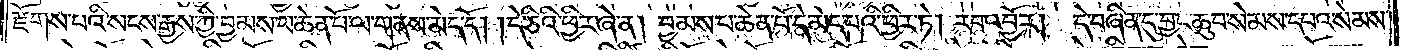རྫོགས་པའི་སངས་རྒྱས་ཀྱི་བྱམས་པ་ཆེན་པོ་ལ་གནས་མེད་དོ། །དེ་ཅིའི་ཕྱིར་ཞེ་ན། བྱམས་པ་ཆེན་པོ་དེ་མེད་པའི་ཕྱིར་ཏེ། རབ་འབྱོར། དེ་བཞིན་དུ་བྱང་ཆུབ་སེམས་དཔའ་སེམས་
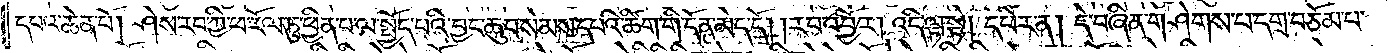དཔའ་ཆེན་པོ། ཤེས་རབ་ཀྱི་ཕ་རོལ་ཏུ་ཕྱིན་པ་ལ་སྤྱོད་པའི་བྱང་ཆུབ་སེམས་དཔའི་ཚིག་གི་དོན་མེད་དོ། །རབ་འབྱོར། འདི་ལྟ་སྟེ། དཔེར་ན། དེ་བཞིན་གཤེགས་པ་དགྲ་བཅོམ་པ་
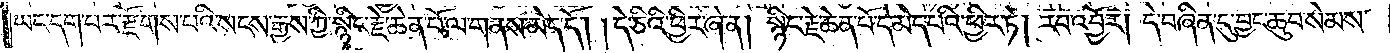ཡང་དག་པར་རྫོགས་པའི་སངས་རྒྱས་ཀྱི་སྙིང་རྗེ་ཆེན་པོ་ལ་གནས་མེད་དོ། །དེ་ཅིའི་ཕྱིར་ཞེ་ན། སྙིང་རྗེ་ཆེན་པོ་དེ་མེད་པའི་ཕྱིར་ཏེ། རབ་འབྱོར། དེ་བཞིན་དུ་བྱང་ཆུབ་སེམས་
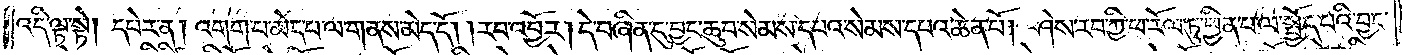འདི་ལྟ་སྟེ། དཔེར་ན། འགག་པ་མེད་པ་ལ་གནས་མེད་དོ། །རབ་འབྱོར། དེ་བཞིན་དུ་བྱང་ཆུབ་སེམས་དཔའ་སེམས་དཔའ་ཆེན་པོ། ཤེས་རབ་ཀྱི་ཕ་རོལ་ཏུ་ཕྱིན་པ་ལ་སྤྱོད་པའི་བྱང་
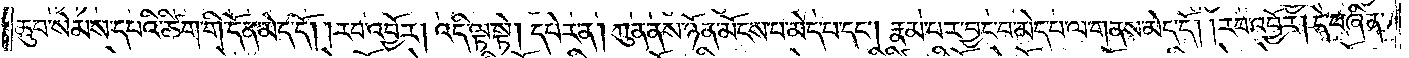ཆུབ་སེམས་དཔའི་ཚིག་གི་དོན་མེད་དོ། །རབ་འབྱོར། འདི་ལྟ་སྟེ། དཔེར་ན། ཀུན་ནས་ཉོན་མོངས་པ་མེད་པ་དང༌། རྣམ་པར་བྱང་བ་མེད་པ་ལ་གནས་མེད་དོ། །རབ་འབྱོར། དེ་བཞིན་
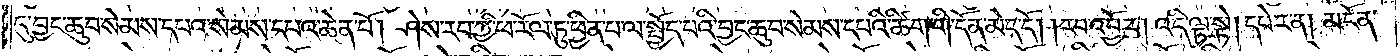དུ་བྱང་ཆུབ་སེམས་དཔའ་སེམས་དཔའ་ཆེན་པོ། ཤེས་རབ་ཀྱི་ཕ་རོལ་ཏུ་ཕྱིན་པ་ལ་སྤྱོད་པའི་བྱང་ཆུབ་སེམས་དཔའི་ཚིག་གི་དོན་མེད་དོ། །རབ་འབྱོར། འདི་ལྟ་སྟེ། དཔེར་ན། མངོན་
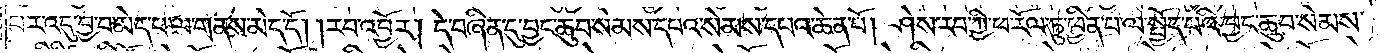པར་འདུ་བྱ་བ་མེད་པ་ལ་གནས་མེད་དོ། །རབ་འབྱོར། དེ་བཞིན་དུ་བྱང་ཆུབ་སེམས་དཔའ་སེམས་དཔའ་ཆེན་པོ། ཤེས་རབ་ཀྱི་ཕ་རོལ་ཏུ་ཕྱིན་པ་ལ་སྤྱོད་པའི་བྱང་ཆུབ་སེམས་
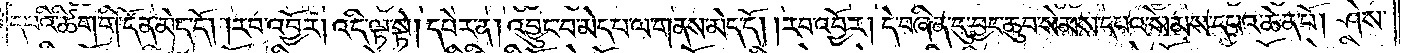དཔའི་ཚིག་གི་དོན་མེད་དོ། །རབ་འབྱོར། འདི་ལྟ་སྟེ། དཔེར་ན། འབྱུང་བ་མེད་པ་ལ་གནས་མེད་དོ། །རབ་འབྱོར། དེ་བཞིན་དུ་བྱང་ཆུབ་སེམས་དཔའ་སེམས་དཔའ་ཆེན་པོ། ཤེས་
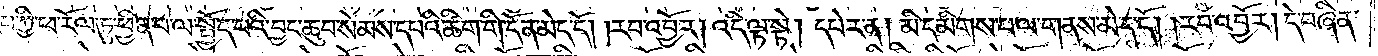རབ་ཀྱི་ཕ་རོལ་ཏུ་ཕྱིན་པ་ལ་སྤྱོད་པའི་བྱང་ཆུབ་སེམས་དཔའི་ཚིག་གི་དོན་མེད་དོ། །རབ་འབྱོར། འདི་ལྟ་སྟེ། དཔེར་ན། མི་དམིགས་པ་ལ་གནས་མེད་དོ། །རབ་འབྱོར། དེ་བཞིན་
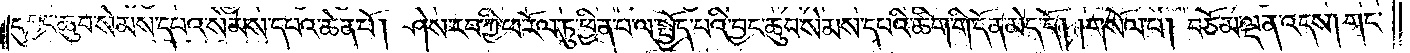དུ་བྱང་ཆུབ་སེམས་དཔའ་སེམས་དཔའ་ཆེན་པོ། ཤེས་རབ་ཀྱི་ཕ་རོལ་ཏུ་ཕྱིན་པ་ལ་སྤྱོད་པའི་བྱང་ཆུབ་སེམས་དཔའི་ཚིག་གི་དོན་མེད་དོ། །གསོལ་པ། བཅོམ་ལྡན་འདས་གང་
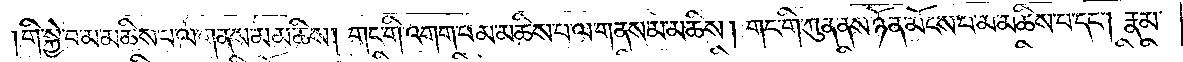གི་སྐྱེ་བ་མ་མཆིས་པ་ལ་གནས་མ་མཆིས། གང་གི་འགག་པ་མ་མཆིས་པ་ལ་གནས་མ་མཆིས། གང་གི་ཀུན་ནས་ཉོན་མོངས་པ་མ་མཆིས་པ་དང༌། རྣམ་
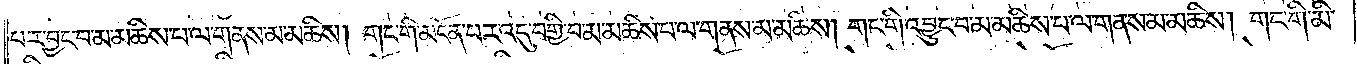པར་བྱང་བ་མ་མཆིས་པ་ལ་གནས་མ་མཆིས། གང་གི་མངོན་པར་འདུ་བགྱི་བ་མ་མཆིས་པ་ལ་གནས་མ་མཆིས། གང་གི་འབྱུང་བ་མ་མཆིས་པ་ལ་གནས་མ་མཆིས། གང་གི་མི་
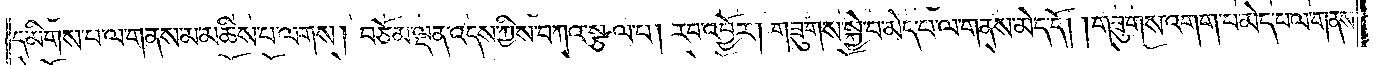དམིགས་པ་ལ་གནས་མ་མཆིས་པ་ལགས། བཅོམ་ལྡན་འདས་ཀྱིས་བཀའ་སྩལ་པ། རབ་འབྱོར། གཟུགས་སྐྱེ་བ་མེད་པ་ལ་གནས་མེད་དོ། །གཟུགས་འགག་པ་མེད་པ་ལ་གནས་
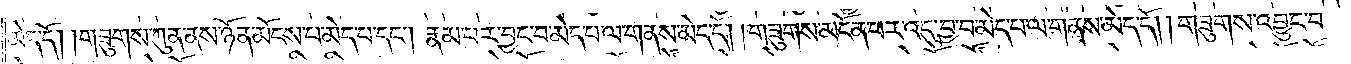མེད་དོ། །གཟུགས་ཀུན་ནས་ཉོན་མོངས་པ་མེད་པ་དང༌། རྣམ་པར་བྱང་བ་མེད་པ་ལ་གནས་མེད་དོ། །གཟུགས་མངོན་པར་འདུ་བྱ་བ་མེད་པ་ལ་གནས་མེད་དོ། །གཟུགས་འབྱུང་བ་
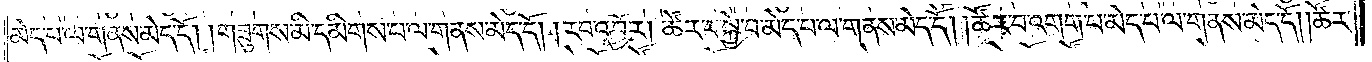མེད་པ་ལ་གནས་མེད་དོ། །གཟུགས་མི་དམིགས་པ་ལ་གནས་མེད་དོ། །རབ་འབྱོར། ཚོར་བ་སྐྱེ་བ་མེད་པ་ལ་གནས་མེད་དོ། །ཚོར་བ་འགག་པ་མེད་པ་ལ་གནས་མེད་དོ། །ཚོར་
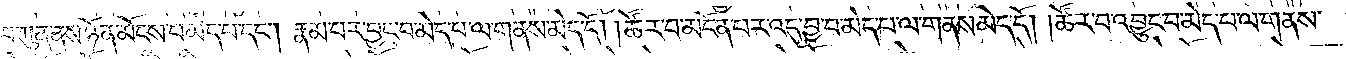བ་ཀུན་ནས་ཉོན་མོངས་པ་མེད་པ་དང༌། རྣམ་པར་བྱང་བ་མེད་པ་ལ་གནས་མེད་དོ། །ཚོར་བ་མངོན་པར་འདུ་བྱ་བ་མེད་པ་ལ་གནས་མེད་དོ། །ཚོར་བ་འབྱུང་བ་མེད་པ་ལ་གནས་
